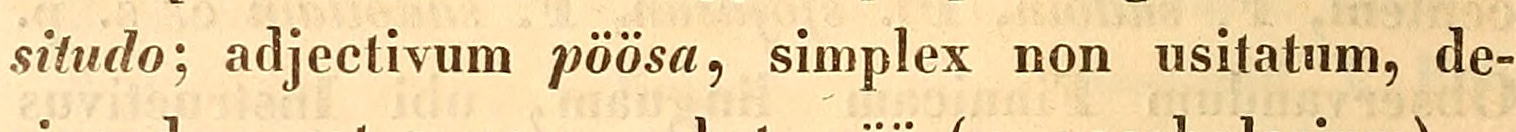situdo; adjectivum pöösa, simplex non usitatum, de-
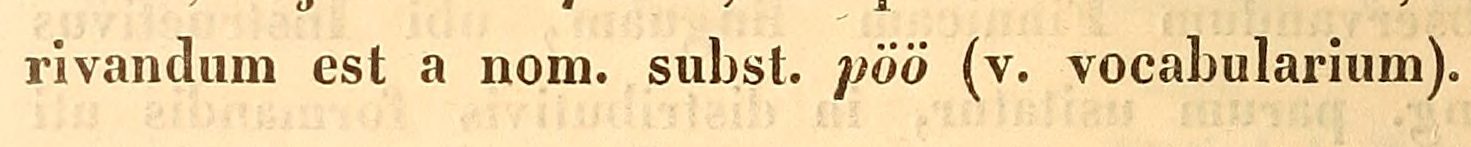rivandum est a nom. subst. pöö (v. vocabularium).
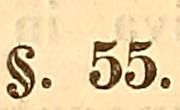§. 55.
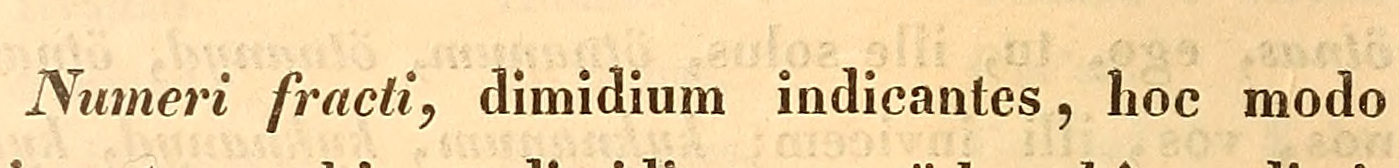Numeri fracti, dimidium indicantes, hoc modo
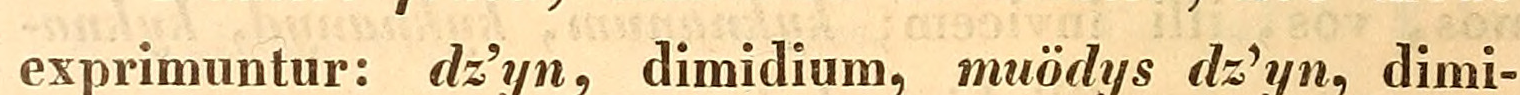exprimuntur: dz'yn, dimidium, muödys dz'yn, dimi-
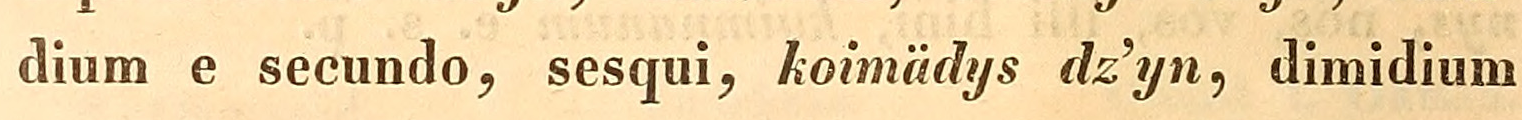dium e secundo, sesqui, koimädys dz'yn, dimidium
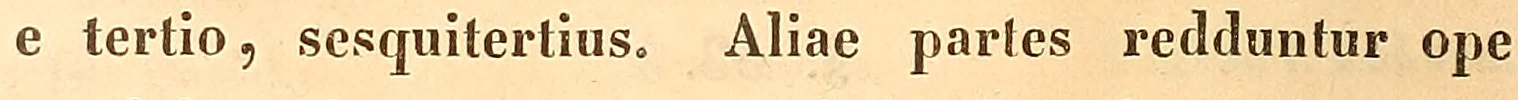e tertio, sesquitertius. Aliae partes redduntur ope
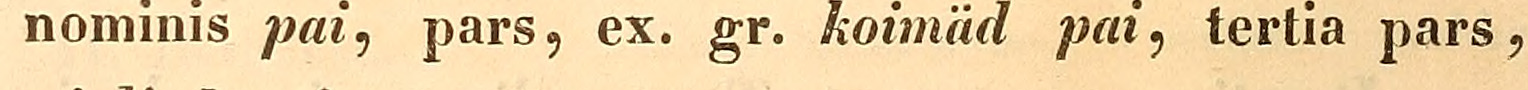nominis pai, pars, ex. gr. koimäd pai, tertia pars,
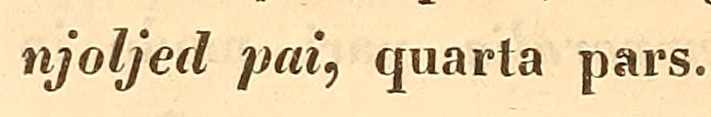njoljed pai, quarta pars.
